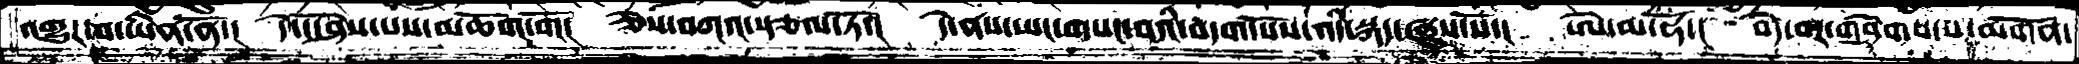འགྱུར་བ་ཡིན་ནོ་།  དེ་ངོ་ཤེས་པས་མཆོག་གོ།  ཅེས་བཀའ་སྩལ་ཏོ་།  དེ་ནས་ཡང་གསང་་བའི་བདག་པོས་འདི་སྐད་ཞུས་སོ་།  ཨེ་མ་ཧོ་།  བདེ་བར་གཤེགས་པ་མགོན་
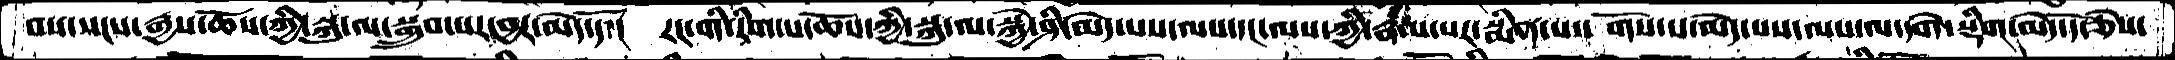བས་སངས་རྒྱས་ཆོས་ཀྱི་སྐུ་ལ་སྒྲུབ་པར་བྱར་མེད་དོ་།  རང་གི་རིག་པ་ཆོས་ཀྱི་སྐུ་ལ་སྐྱེ་ཤི་མེད་པས་ལས་དང་ལས་ཀྱི་རྣམ་པར་སྨིན་པ་དགོས་པ་མེད་པས་ལས་ལ་དགེ་སྡིག་མེད་དོ་ཅེས་
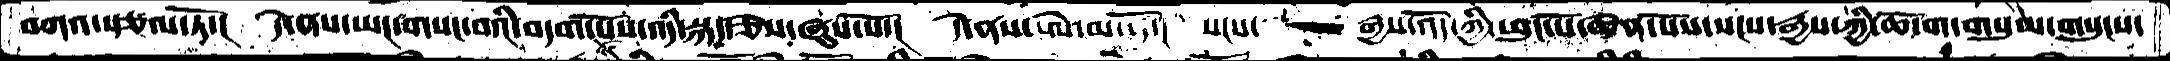བཀའ་སྩལ་ཏོ་།  དེ་ནས་ཡང་གསང་བའི་བདག་པོས་འདི་སྐད་ཅེས་ཞུས་སོ་།  དེ་ནས་ཨེ་མ་ཧོ་།  སངས་   རྒྱས་འོད་ཀྱི་ཕུང་པོ་ཆེན་པོས་སངས་རྒྱས་ཀྱི་ཆོ་ག་གསུམ་གསུངས་
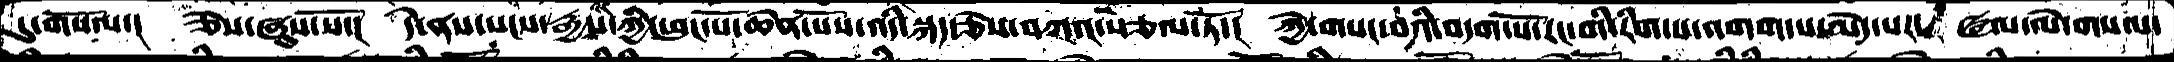དུ་གསོལ་།  ཅེས་ཞུས་སོ་།  དེ་ནས་སངས་རྒྱས་ཀྱི་ཕུང་པོ་ཆེན་པོས་འདི་སྐད་ཅེས་བཀའ་སྩལ་ཏོ་།  ཀྱེ་གསང་བའི་བདག་པོ་རང་གི་རིག་པ་འགག་པ་མེད་པར་ ཝལ་ལེ་གསལ་
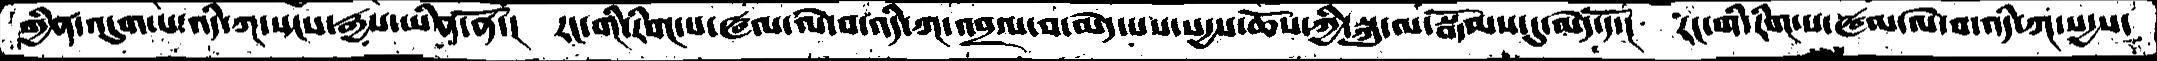ཀྱིན་འདུག་པ་འདི་ཀ་སངས་རྒྱས་ཡིན་ནོ་།  རང་གི་རིག་པ་ཝལ་ལེ་བ་འདི་ཀ་འབྲལ་བ་མེད་པས་སདྱས་ཆོས་ཀྱི་སྐུ་ལ་སྒོམས་དུ་མེད་དོ་།  རང་གི་རིག་པ་ཝལ་ལེ་བ་འདི་ཀ་སདྱས་
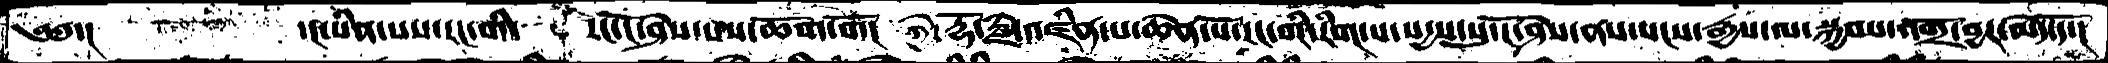༄༅་།      ་།ཡིན་པས་རང་གི་    རངངོ་ཤེས་པས་ཆོག་གོ།  ཀྱེ་རྡོ་རྗེ་འཛིན་པ་ཆེན་པོ་རང་གི་རིག་པ་སདྱས་སུ་ངོ་ཤེས་ནས་སངས་རྒྱས་ལ་སྐྱབས་འགྲོ་བྱར་མེད་དོ་།
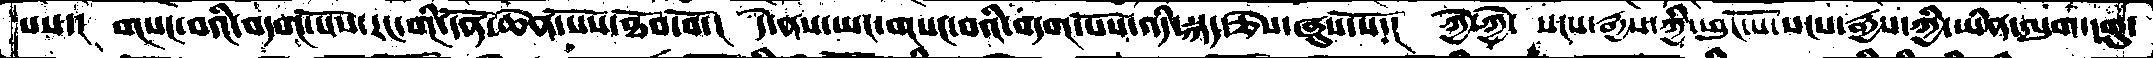པས་།  གསང་བའི་བདག་པོ་རང་གི་དོན་ཆེན་པོས་ཐོབ་བོ།  དེ་ནས་ཡང་གསང་བའི་བདག་པོས་འདི་སྐད་ཅེས་ཞུས་སོ་།  ཀྱེ་ཀྱེ་  སངས་རྒྱས་ཀྱི་ཕུང་པོ་སངས་རྒྱས་ཀྱི་ཡིན་ལུག་དགུ་
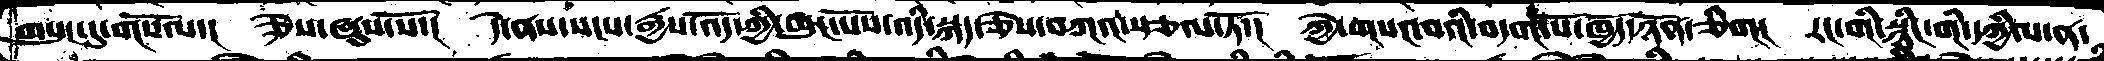གསུང་དུ་གསོལ་།  ཅེས་ཞུས་སོ་།  དེ་ནས་སངས་རྒྱས་འོད་གྱི་ཕུང་པོས་འདི་སྐད་ཅེས་བཀའ་སྩལ་ཏོ་།  ཀྱེ་གསང་བའི་བདག་པོ་ཁྱོད་ཉོན་ཅིག།  རང་གི་སྙིང་གི་དཀྱིལ་ན་
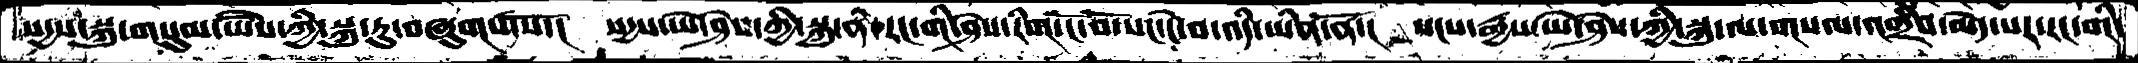སདྱས་སྐུ་གསུམ་ཡཻས་ཀྱི་སྐུ་རུ་བཞུགས་སོ་།  སདྱས་ཡེ་ཤེས་གྱི་སྐུ་ནི་རང་གི་ཤེས་རིག་ངོ་བོ་སང་ངེ་་བ་འདི་ཡིན་ནོ་།  སངས་རྒྱས་ཡེ་ཤེས་ཀྱི་སྐུ་ལ་གསལ་འགྲིབ་མེད་པར་རང་གི་
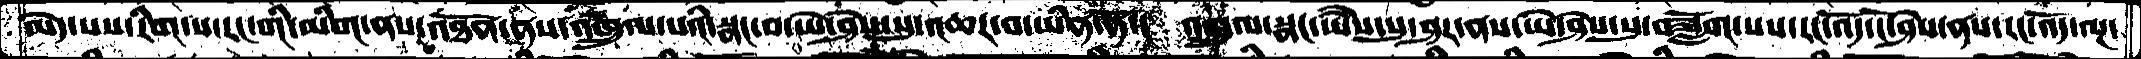མེད་པས་རིག་པ་རང་གི་མིག་ནས་འཐོན་ནས་འཁྲུལ་པའི་སྣང་བ་ཡེ་ཤེས་སུ་འཆར་བ་ཡིན་ནོ་།  འཁྲུལ་སྣང་ཡཻས་སུ་ཤར་ནས་ཡེ་ཤེས་སུ་བཟློག་པས་རང་འོད་ངོ་ཤེས་ནས་རང་འོད་ལྔ་
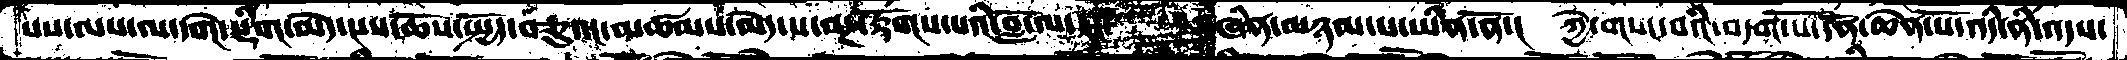པས་ལས་ལ་དགེ་སྡིག་མེད་པས་ཆོས་སྤྱོད་བཅུ་དང་མཚམས་མེད་པ་ལྔ་རྟོགས་པའི་བློ་ལ་རང་བཞིན་མཉམ་པ་ཡིན་ནོ་།  ཀྱེ་གསང་བའི་བདག་པོ་དོན་ཆེན་པོ་འདི་ནི་འདས་
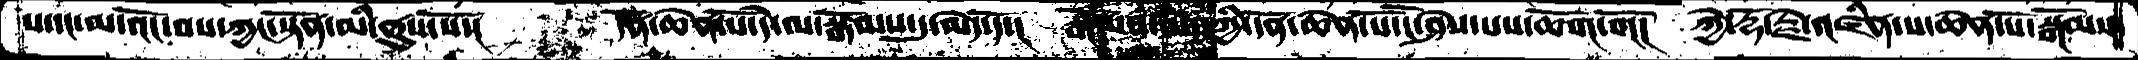པ་དང་མ་འོང་བས་ཀྱང་སྟོན་མི་ནུས་སོ་།    དོན་ཆེན་པོ་དེ་ལ་སྒོམས་དུ་མེད་དོ་།  སྒོམས་མེད་ཀྱི་དོན་ཆེན་པོ་ངོ་ཤེས་སཔ་ཆོག་གོ།  ཀྱེ་རྡོ་རྗེ་འཛིན་པ་ཆེན་པོ་སྒོམས་
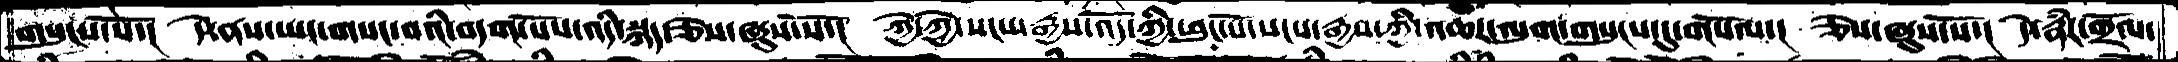གསུངས་སོ་།  དེ་ནས་ཡང་གསང་བའི་བདག་པོས་འདི་སྐད་ཅེས་ཞུས་སོ་།  ཀྱེ་ཀྱེ་སངས་རྒྱས་འོད་ཀྱི་ཕུང་པོ་སངས་རྒྱས་ཀྱི་འཆར་ལུག་གསུངས་དུ་གསོལ་།  ཅེས་ཞུས་སོ་།  དེ་རྣཾར་གྲོལ་
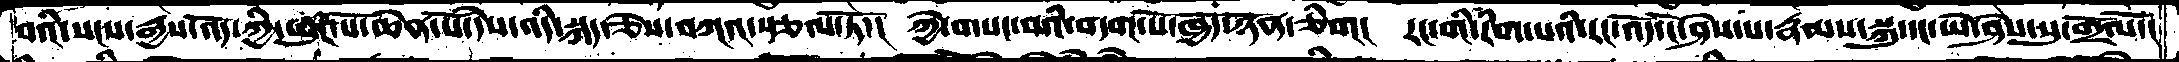བའི་སངས་རྒྱས་འོད་ཀྱི་ཕུང་པོ་ཆེན་པོ་དེས་འདི་སྐད་ཅེས་བཀའ་སྩལ་ཏོ་།  ཀྱེ་གསང་བའི་བདག་པོ་ཁྱོད་ཉོན་ཅིག།  རང་གི་རིག་པའི་རང་འོད་ངོ་ཤེས་པ་རྣམས་སྐུ་དང་ཡེ་ཤེས་སུ་གྲོལོ་།
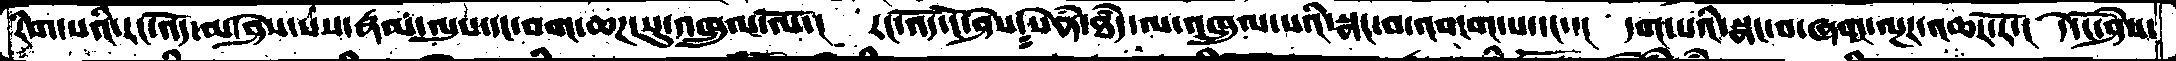རིག་པའི་རང་འོད་མ་ཤེས་པས་རྣམ་ལུས་དང་བག་ཆཌ་སུ་འཁྲུལ་ལོ་།  རང་འོད་ངོ་ཤེས་སེཾན་ཐདཾ་ལ་འཁྲུལ་པའི་སྣང་བ་འགགས་པ་དང་་།  དག་པའི་སྣང་བ་ཞག་ལྔར་འཆར་རོ་།  དེ་ངོ་ཤེས་
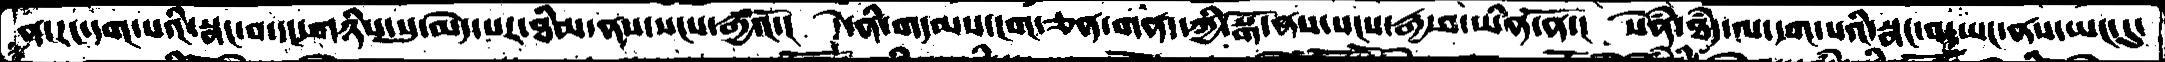ན་རང་དག་པའི་སྣང་བ་དང་གཉིས་སུ་མེད་པར་ཐིམ་ནས་སངས་རྒྱའོ་།  དེ་ནི་གདམས་ངག་ཅན་གནད་ཀྱི་སྒོ་ནས་སངས་རྒྱ་བ་ཡིན་ནི་།  སེཾན་ཐདཾ་ལ་དག་པའི་སྣང་བ་ཡང་ནས་ཡང་དུ་
